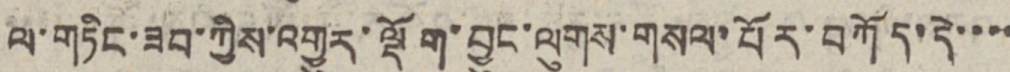ལ་གཏིང་ཟབ་ཀྱིས་འགྱུར་ལྡོག་བྱུང་ལུགས་གསལ་པོར་བཀོད་དེ་་་་
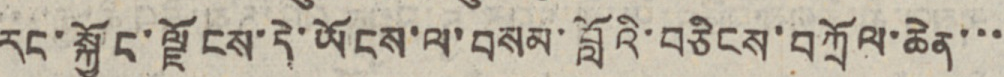རང་སྐྱོང་ལྗོངས་དེ་ཡོངས་ལ་བསམ་བློའི་བཅིངས་བཀྲོལ་ཆེན་་་
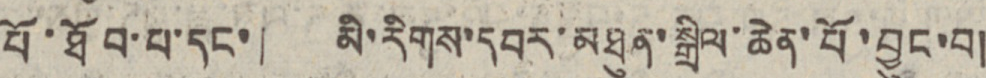པོ་ཐོབ་པ་དང་། མི་རིགས་དབར་མཐུན་སྒྲིལ་ཆེན་པོ་བྱུང་བ།
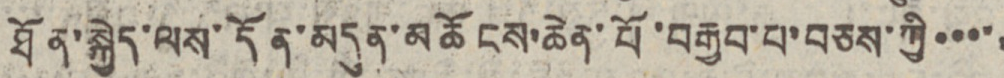ཐོན་སྐྱེད་ལས་དོན་མདུན་མཆོངས་ཆེན་པོ་བརྒྱབ་པ་བཅས་ཀྱི་་་་་
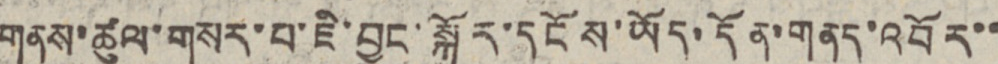གནས་ཚུལ་གསར་བ་ཇི་བྱུང་སྐོར་དངོས་ཡོད་དོན་གནད་འབོར་་
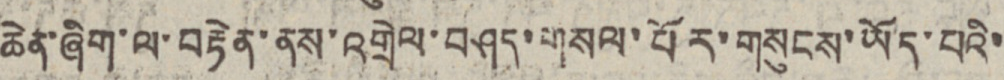ཆེན་ཞིག་ལ་བརྟེན་ནས་འགྲེལ་བཤད་གསལ་པོར་གསུངས་ཡོད་པའི་
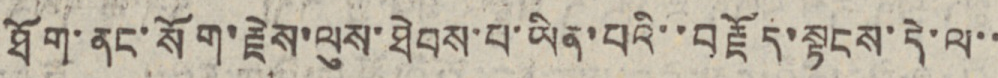ཐོག་ནང་སོག་རྗེས་ལུས་ཐེབས་པ་ཡིན་པའི་་བརྗོད་སྟངས་དེ་ལ་་
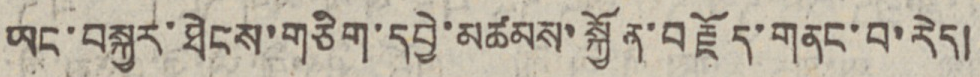ཡང་བསྐྱར་ཐེངས་གཅིག་དབྱེ་མཚམས་སྐྱོན་བརྗོད་གནང་བ་རེད།
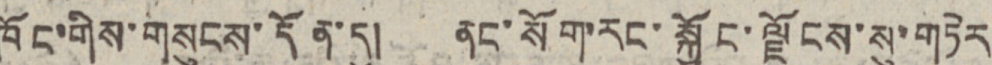ཁོང་གིས་གསུངས་དོན་དུ། ནང་སོག་རང་སྐྱོང་ལྗོངས་སུ་གཏེར
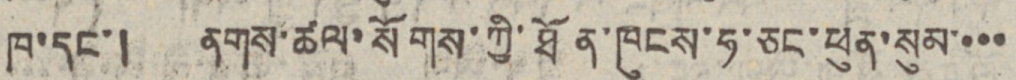ཁ་དང་། ནགས་ཚལ་སོགས་ཀྱི་ཐོན་ཁུངས་ཧ་ཅང་ཕུན་སུམ་་་་
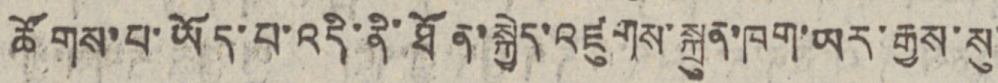ཚོགས་པ་ཡོད་པ་འདི་ནི་ཐོན་སྐྱེད་འཛུགས་སྐྲུན་ཁག་ཡར་རྒྱས་སུ་
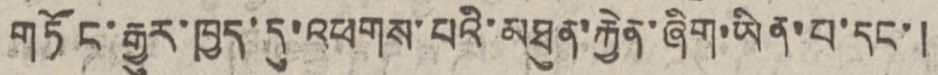གཏོང་རྒྱུར་ཁྱད་དུ་འཕགས་པའི་མཐུན་རྐྱེན་ཞིག་ཡིན་པ་དང་།
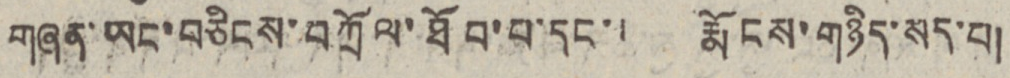གཞན་ཡང་བཅིངས་བཀྲོལ་ཐོབ་པ་དང་། རྨོངས་གཉིད་སད་པ།
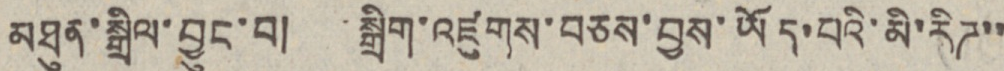མཐུན་སྒྲིལ་བྱུང་བ། སྒྲིག་འཛུགས་བཅས་བྱས་ཡོད་པའི་མི་རིཊ་་
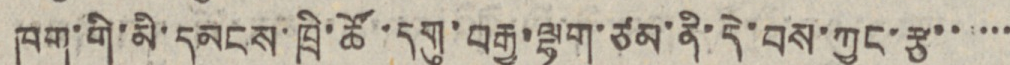ཁག་གི་མི་དམངས་ཁྲི་ཚོ་དགུ་བརྒྱ་ལྷག་ཙམ་ནི་དེ་བས་ཀྱང་རྩ་་་་་་
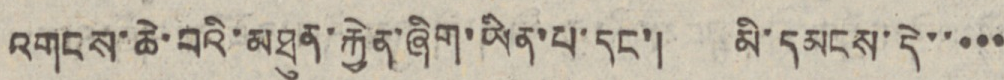འགངས་ཆེ་བའི་མཐུན་རྐྱེན་ཞིག་ཡིན་པ་དང་། མི་དམངས་དེ་་་་་
